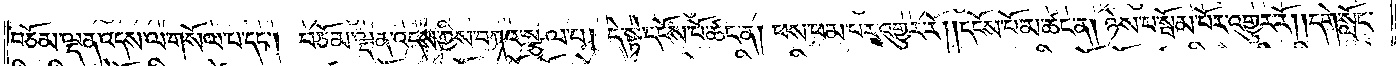བཅོམ་ལྡན་འདས་ལ་གསོལ་པ་དང༌། བཅོམ་ལྡན་འདས་ཀྱིས་བཀའ་སྩལ་པ། དེ་སྟེ་དངོས་པོ་ཚང་ན། ཕས་ཕམ་པར་འགྱུར་རོ། །དངོས་པོ་མ་ཚང་ན། ཉེས་པ་སྦོམ་པོར་འགྱུར་རོ། །དགེ་སློང་
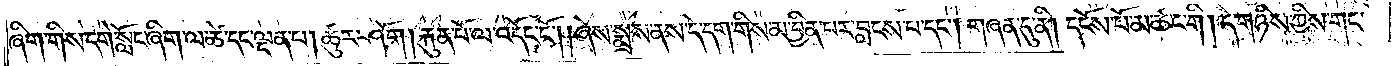ཞིག་གིས་དགེ་སློང་ཞིག་ལ་ཚེ་དང་ལྡན་པ། ཚུར་ཤོག །རྐུན་པོ་ལ་འདོང་ངོ༌། །ཞེས་སྨྲས་ནས་དེ་དག་གིས་མ་བྱིན་པར་བླངས་པ་དང༌། གཞན་དུ་ནི། དངོས་པོ་མ་ཚང་གི། དེ་གཉིས་ཀྱིས་གང་
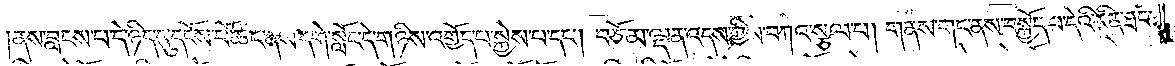ནས་བླངས་པ་དེ་ཉིད་དུ་དངོས་པོ་ཚང་ནས་དགེ་སློང་དེ་གཉིས་འགྱོད་པ་སྐྱེས་པ་དང༌། བཅོམ་ལྡན་འདས་ཀྱིས་བཀའ་སྩལ་པ། གནས་གང་ནས་བསྐྱོད་པ་དེའི་རིན་ཐང་
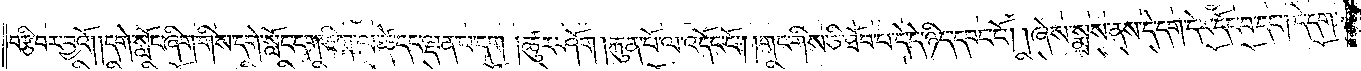བརྩི་བར་བྱའོ། །དགེ་སློང་ཞིག་གིས་དགེ་སློང་དག་ཅིག་ལ་ཚེ་དང་ལྡན་པ་དག །ཚུར་ཤོག །རྐུན་པོ་ལ་འདོང་ངོ༌། །གང་གིས་ཅི་ཐོབ་པ་དེ་དེ་ཉིད་དབང་ངོ༌། །ཞེས་སྨྲས་ནས་དེ་དག་དེར་དོང་བ་དང༌། དེ་དག་
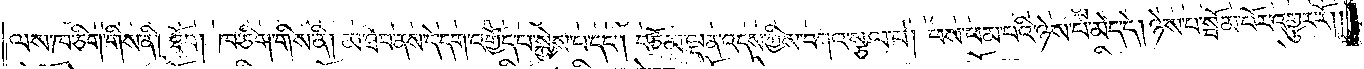ལས་ཁ་ཅིག་གིས་ནི། ཐོབ། ཁ་ཅིག་གིས་ནི། མ་ཐོབ་ནས་དེ་དག་འགྱོད་པ་སྐྱེས་པ་དང༌། བཅོམ་ལྡན་འདས་ཀྱིས་བཀའ་སྩལ་པ། ཕས་ཕམ་པའི་ཉེས་པ་མེད་དེ། ཉེས་པ་སྦོམ་པོར་འགྱུར་རོ༎
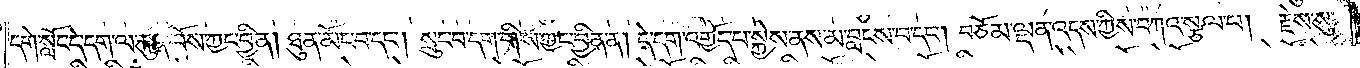དགེ་སློང་དེ་དག་ལ་རྐུན་པོས་ཀྱང་བྱིན། ཐུན་མོང་བ་དང༌། སྲུང་བ་དག་གིས་ཀྱང་བྱིན་ན། དེ་དག་འགྱོད་པ་སྐྱེས་ནས་མ་བླངས་བ་དང༌། བཅོམ་ལྡན་འདས་ཀྱིས་བཀའ་སྩལ་པ། རྗེས་སུ་
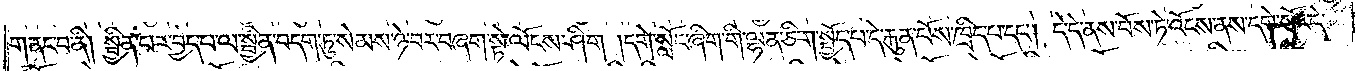གནང་བ་ནི། སྦྱིན་པར་བྱེད་པ་ལ་སྦྱིན་བདག་ཏུ་སེམས་ཉེ་བར་བཞག་སྟེ་ལོངས་ཤིག །དགེ་སློང་ཞིག་གི་ལྷན་ཅིག་སྤྱོད་པ་དེ་རྐུན་པོས་ཁྲིད་པ་དང༌། དེ་དེ་ནས་བོས་ཏེ་འོངས་ནས་དགེ་སློང་དེ་
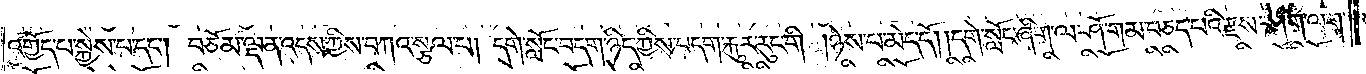འགྱོད་པ་སྐྱེས་པ་དང༌། བཅོམ་ལྡན་འདས་ཀྱིས་བཀའ་སྩལ་པ། དགེ་སློང་བདག་ཉིད་ཀྱིས་བདག་རྐུར་རུང་གི །ཉེས་པ་མེད་དོ། །དགེ་སློང་ཞིག་ལ་ཤོ་གམ་བཅད་པའི་རྫས་ཤིག་ལག་
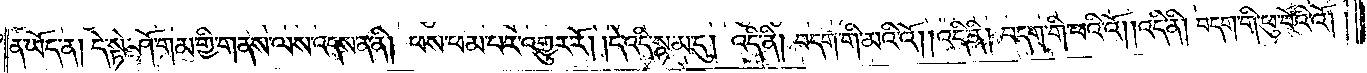ན་ཡོད་ན། དེ་སྟེ་ཤོ་གམ་གྱི་གནས་ལས་འདས་ན་ནི། ཕས་ཕམ་པར་འགྱུར་རོ། །དེ་འདི་སྙམ་དུ། འདི་ནི། བདག་གི་མའི་འོ། །འདི་ནི། བདག་གི་ཕའི་འོ། །འདི་ནི། བདག་གི་ཕུ་བོའི་འོ། །
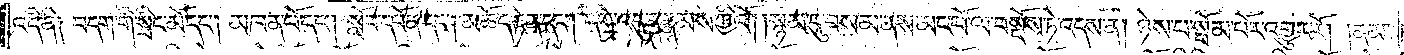འདི་ནི༑ བདག་གི་སྲིང་མོ་དང༌། མཁན་པོ་དང༌། སློབ་དཔོན་དང༌། མཆོད་རྟེན་དང༌། དགེ་འདུན་རྣམས་ཀྱིའོ། །སྙམ་དུ་བསམ་ནས་མང་པོ་ལ་བསྔོས་ཏེ་འདས་ན། ཉེས་པ་སྦོམ་པོར་འགྱུར་རོ། །ནམ་
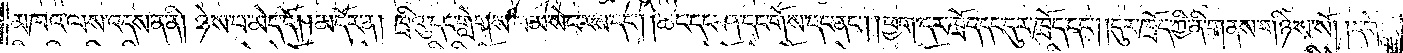མཁའ་ལས་འདས་ན་ནི། ཉེས་པ་མེད་དོ། །མདོར་ན། ཁྲིའུ་དང་གླེགས་བམ་སེང་རས་དང༌། །ཆང་དང་ཤ་དང་གོས་དང་ནང༌། །ཕྱག་དར་ཁྲོད་དང་དུར་ཁྲོད་དང༌། །དུར་ཁྲོད་ཀྱི་ནི་གནས་གཉིས་སོ། །དགེ་སློང་
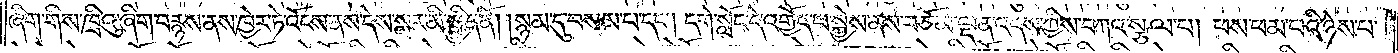ཞིག་གིས་ཁྲིའུ་ཞིག་བརྙས་ནས་ཁྱེར་ཏེ་འོངས་ནས་དེས་སླར་མི་སྦྱིན་ནོ། །སྙམ་དུ་བསམ་པ་དང༌། དགེ་སློང་དེ་འགྱོད་པ་སྐྱེས་ནས་བཅོམ་ལྡན་འདས་ཀྱིས་བཀའ་སྩལ་པ། ཕས་ཕམ་པའི་ཉེས་པ་
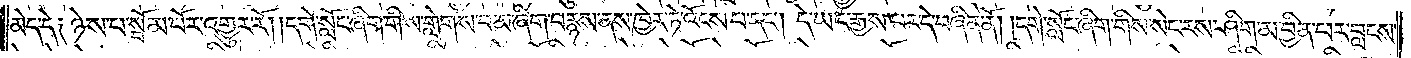མེད་དེ༑ ཉེས་པ་སྦོམ་པོར་འགྱུར་རོ། །དགེ་སློང་ཞིག་གིས་གླེགས་བམ་ཞིག་བརྙས་ནས་ཁྱེར་ཏེ་འོངས་པ་དང༌། དེ་ཡང་རྒྱས་པར་དེ་བཞིན་ནོ། །དགེ་སློང་ཞིག་གིས་སེང་རས་ཤིག་མ་བྱིན་པར་བླངས་
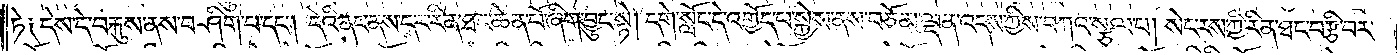ཏེ༑ དེས་དེ་བརྐུས་ནས་བཤིག་པ་དང༌། དེའི་ནང་ནས་དར་རིན་ཐང་ཆེན་པོ་ཞིག་བྱུང་སྟེ། དགེ་སློང་དེ་འགྱོད་པ་སྐྱེས་ནས་བཅོམ་ལྡན་འདས་ཀྱིས་བཀའ་སྩལ་པ། སེང་རས་ཀྱི་རིན་ཐང་བརྩི་བར་
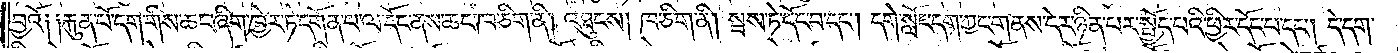བྱའོ༑ ༑རྐུན་པོ་དག་གིས་ཆང་ཞིག་ཁྱེར་ཏེ་དགོན་པ་ལ་དོང་ནས་ཆང་ཁ་ཅིག་ནི། འཐུངས། ཁ་ཅིག་ནི། སྦས་ཏེ་དོང་བ་དང༌། དགེ་སློང་དག་ཀྱང་གནས་དེར་ཉིན་པར་སྤྱོད་པའི་ཕྱིར་དོང་པ་དང༌། དེ་དག་
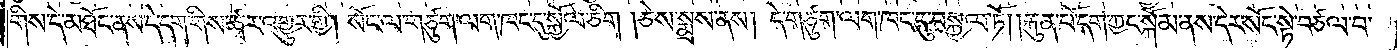གིས་དེ་མཐོང་ནས་དེ་དག་གིས་ཚྭར་འགྱུར་གྱི། སོང་ལ་གཙུག་ལག་ཁང་དུ་སྐྱོལ་ཅིང༌། ཅེས་སྨྲས་ནས། དེ་གཙུག་ལག་ཁང་དུ་བསྐྱལ་ཏོ། །རྐུན་པོ་དག་ཀྱང་སྐོམ་ནས་དེར་སོང་སྟེ་བཙལ་བ་
